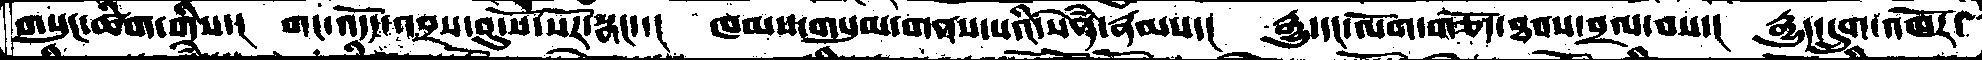གསུང་ཚིག་གིས་།   གང་འདོད་འབྲས་བུ་སོ་སོར་སྣང་་།   ཁམས་གསུམ་གནས་པའི་སེཾན་རྣམས་།  རྒྱུ་དང་ལོག་གཅོད་ཐབས་བྲལ་བས་།  རྒྱུད་དྲུག་འཁོར་
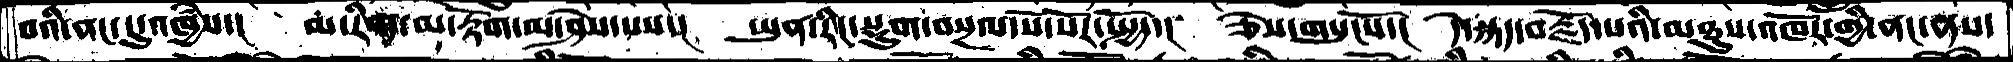བའི་ནང་དུ་འཁྱཾས་།  མ་རིག་མ་རྟོག་མ་ཤེས་པས་།  ཡུན་རིང་སྡུག་བསྔལ་སོ་སོར་སྤྱོད་།   ཅེས་གསུངསོ་།  དེ་སྐད་བརྗོད་པའི་མཐུས་འཁོར་གྱི་ནང་ནས་
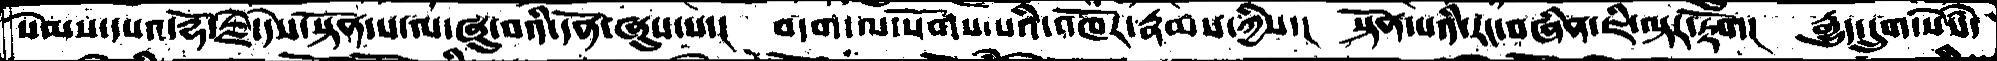སེམས་དཔའ་རྡོ་རྗེ་དེས་སྟོན་པ་ལ་ཞུ་བའི་དོན་ཞུས་པ་།  བདག་ལ་སོགས་པའི་འཁོར་རྣམས་ཀྱིས་།   སྟོན་པའི་རང་བཞིན་ཇི་ལྟར་རྟོག།  རྒྱུད་དྲུག་སེཾས་
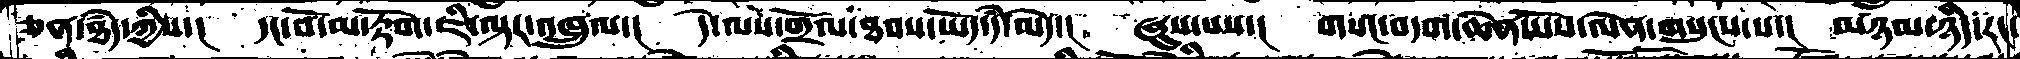ཅན་ཐཾད་ཀྱིས་།   དང་བོ་མ་རྟོག་ཇི་ལྟར་འཁྲུལ་།  དེ་ལས་གྲོལ་ཐབས་ཡོད་དཾ་མེད་།  ཞུས་པས་།  གསང་བདག་ཆེན་པོས་ལེན་གསུངས་པ་།  མཉམ་ཉིད་རང་
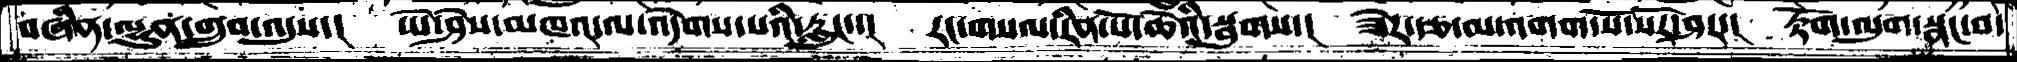བཞིན་ལྷུན་གྲུབ་འདུས་།    ཡེ་ཤེས་མཁའ་ལ་འདེགས་པའི་རླུང་་།  རང་གསལ་རིན་པོ་ཆེའི་སྦུགས་།  ཟེར་རྩ་མ་འགག་སོ་སོར་ཤར་།  རྟོག་ལུག་སྣང་བ་
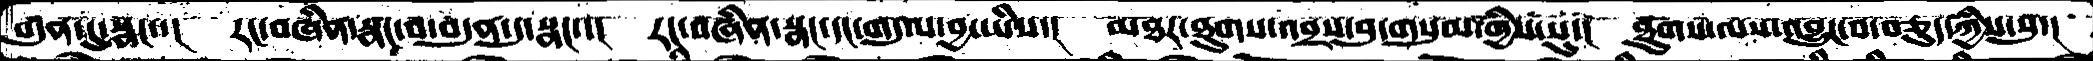བདུན་དུ་སྣང་་།  རང་བཞིན་སྣང་བ་བདུན་དུ་སྣང་་།  རང་བཞིན་སྣང་དང་གདུལ་བྱ་ཡིས་།  མཐར་ཐུགས་འབྲས་བུ་གསུམ་གྱིས་སུ་།  ཐུགས་ལས་འབྱུང་བ་བཅུད་ཀྱིས་བུ་།
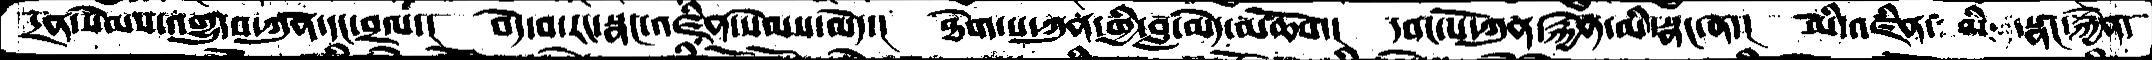དྲན་སེམས་འགྱུ་བ་ཀུན་དང་བྲལ་།  བདེ་བ་རང་སྣང་འཛིན་སེམས་མེད་།  ཐེག་པ་ཀུན་གྱི་བླ་མེད་མཆོག།  དབང་པོ་ཀུན་རྐྱེན་མི་སྣང་ན་།  མི་འཛིན་ མི་ སྣང་རྐྱེན་
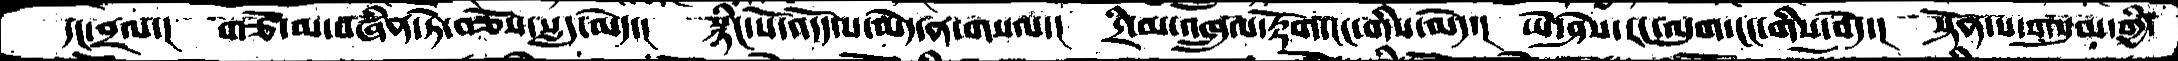དང་བྲལ་།  གཙོ་མ་བཞིན་ཏེ་བཅོས་སླད་མེད་།  སྙིང་པོ་འདོད་པ་མེད་ན་གསལ་།  དྲི་མ་འཁྲུལ་རྟོག་ངང་གིས་མེད་།  ཡེ་ཤེས་རང་ལུག་ངང་གིས་བདེ་།  སྟོན་པ་གསུམ་གྱི་
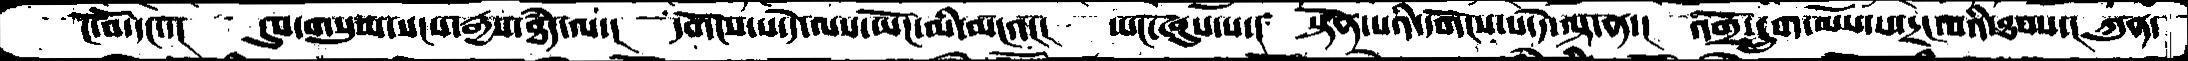ངོ་བོ་དང་་། དུས་གསུམ་སངས་རྒྱས་ཐཾད་ལ་། དགོངས་པ་དེ་ལས་ཡོང་མི་མངའ།།། ཡང་ཞུས་པ་། སྟོན་པའི་དགོངས་པ་དེ་ལྟ་ན་། འགྲོ་དྲུག་མོས་པ་དྲང་བའི་ཐབས་། ཀུན་
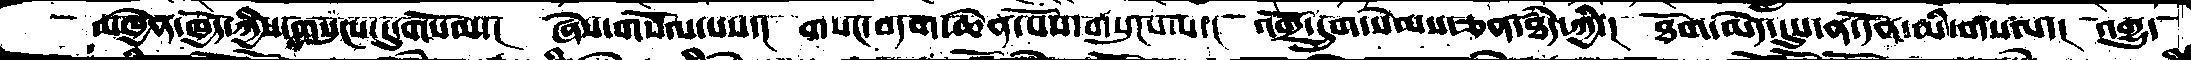མཁྱེན་ཁྱོད་ཀྱིས་གསུངས་དུ་གསོལ་།  ཞེས་གསོལ་པས་།  གསང་བདག་ཆེན་པོས་གསུངས་པ་།  འགྲོ་དྲུག་སེམས་ཅན་ཐཾད་ཀྱི་།  ཐོག་མེད་དུས་ན་དོན་མི་གསལ་།  འགྱུ་
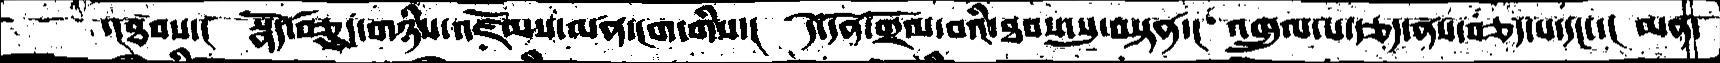་།ཐབས་།  སྣོད་བཅུད་གཉིས་འཛོམས་མན་ངག་གིས་།  དེ་དོན་གྲོལ་བའི་ཐབས་སུ་བསྟན་།  འཁྲུལ་པ་རྩད་ནས་བཅད་པ་་དང་་།  མན་
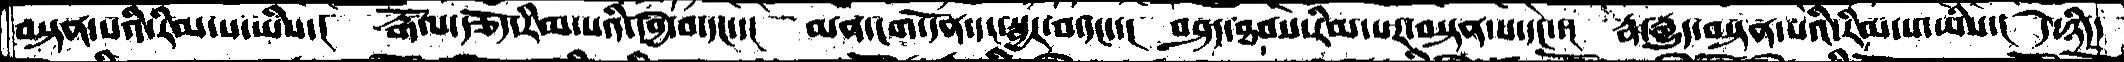བསྟན་པའི་རིམ་པ་ཡིས་།  རྒོལ་རྩོད་རིམ་པའི་དབྱེ་བ་དང་་།  མན་ངག་དོན་དང་སྦྱར་བ་དང་་།   བཤད་ཐབས་རིམ་པར་བསྟན་པ་དང་་།  རྣ་རྒྱུད་བསྟན་པའི་རིམ་པ་ཡིས་།  དེ་ཉིད་
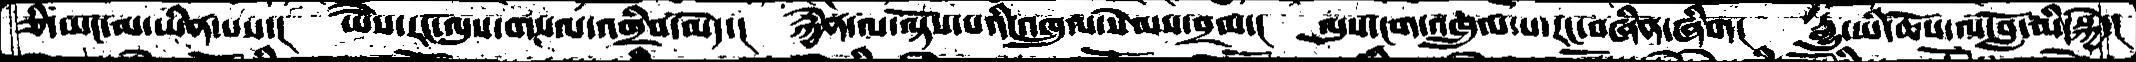ཅི་ཡང་མ་ཡིན་པས་།  ཡཻས་རང་ལུས་གསལ་འགྲིབ་མེད་།   རྐྱེན་ལ་ལྟོས་པའི་འཁྲུལ་སེམས་བྲལ་།  ལུས་ངག་འཁྲུལ་པ་རང་བཞིན་ཞིག།  རྒྱུ་ཡི་ཆོས་ལ་བློ་མི་སྐྱེ་།
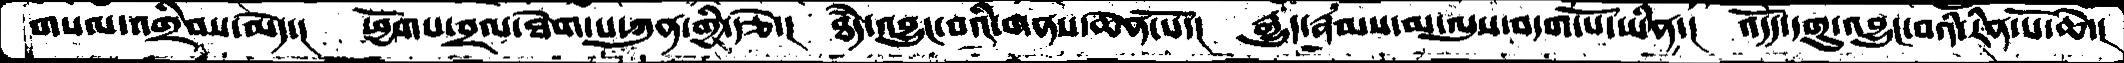གསལ་འགྲིབས་མེད་།  ཕྱོགས་བྲལ་ཐེག་པ་ཀུན་གྱི་རྩེ་།  ཐཾད་འབྱུང་བའི་གནས་ཆེན་པོ་།  རྒྱུད་རྣམས་མ་ལུས་བདག་པོ་ཡིན་།  འདོད་དགུ་འབྱུང་བའི་རིན་པོ་ཆེ་།
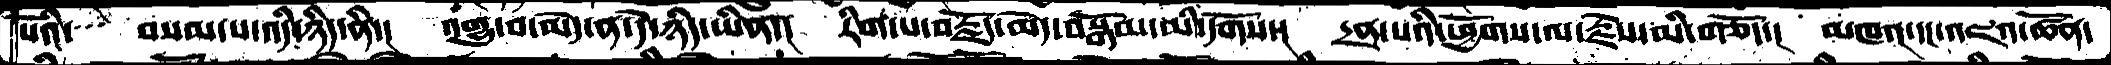པོའི་  བསམ་པ་འདི་ཉིད་ནི་།  འགྱུ་བ་མེད་ན་དེ་ཉིད་ཡིན་།  རིག་པ་བརྗོད་མེད་བསྒོམ་མི་དགོས་།  དྲན་པའི་ཕྱོགས་ལ་རྗེས་མི་གཅོད་།  མཁའ་དང་འཇའ་ཚོན་
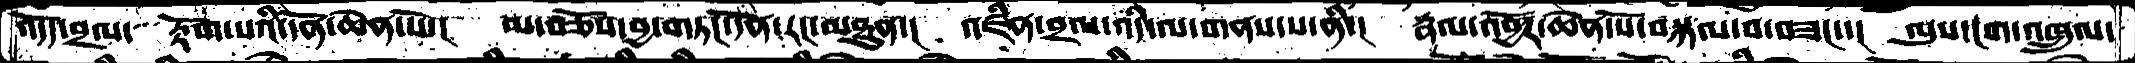འདོད་བྲལ་  རྟོག་པའི་དོན་ཆེན་པོ་།  མ་བཅོས་བྱ་བཏང་དོན་རང་མཐུན་།  འཛིན་བྲལ་འདི་ལ་གནས་པ་ནི་།  རྣལ་འབྱོར་ཆེན་པོ་བསྐལ་བ་བཟང་་།  ལུས་ངག་འཁྲུལ་
